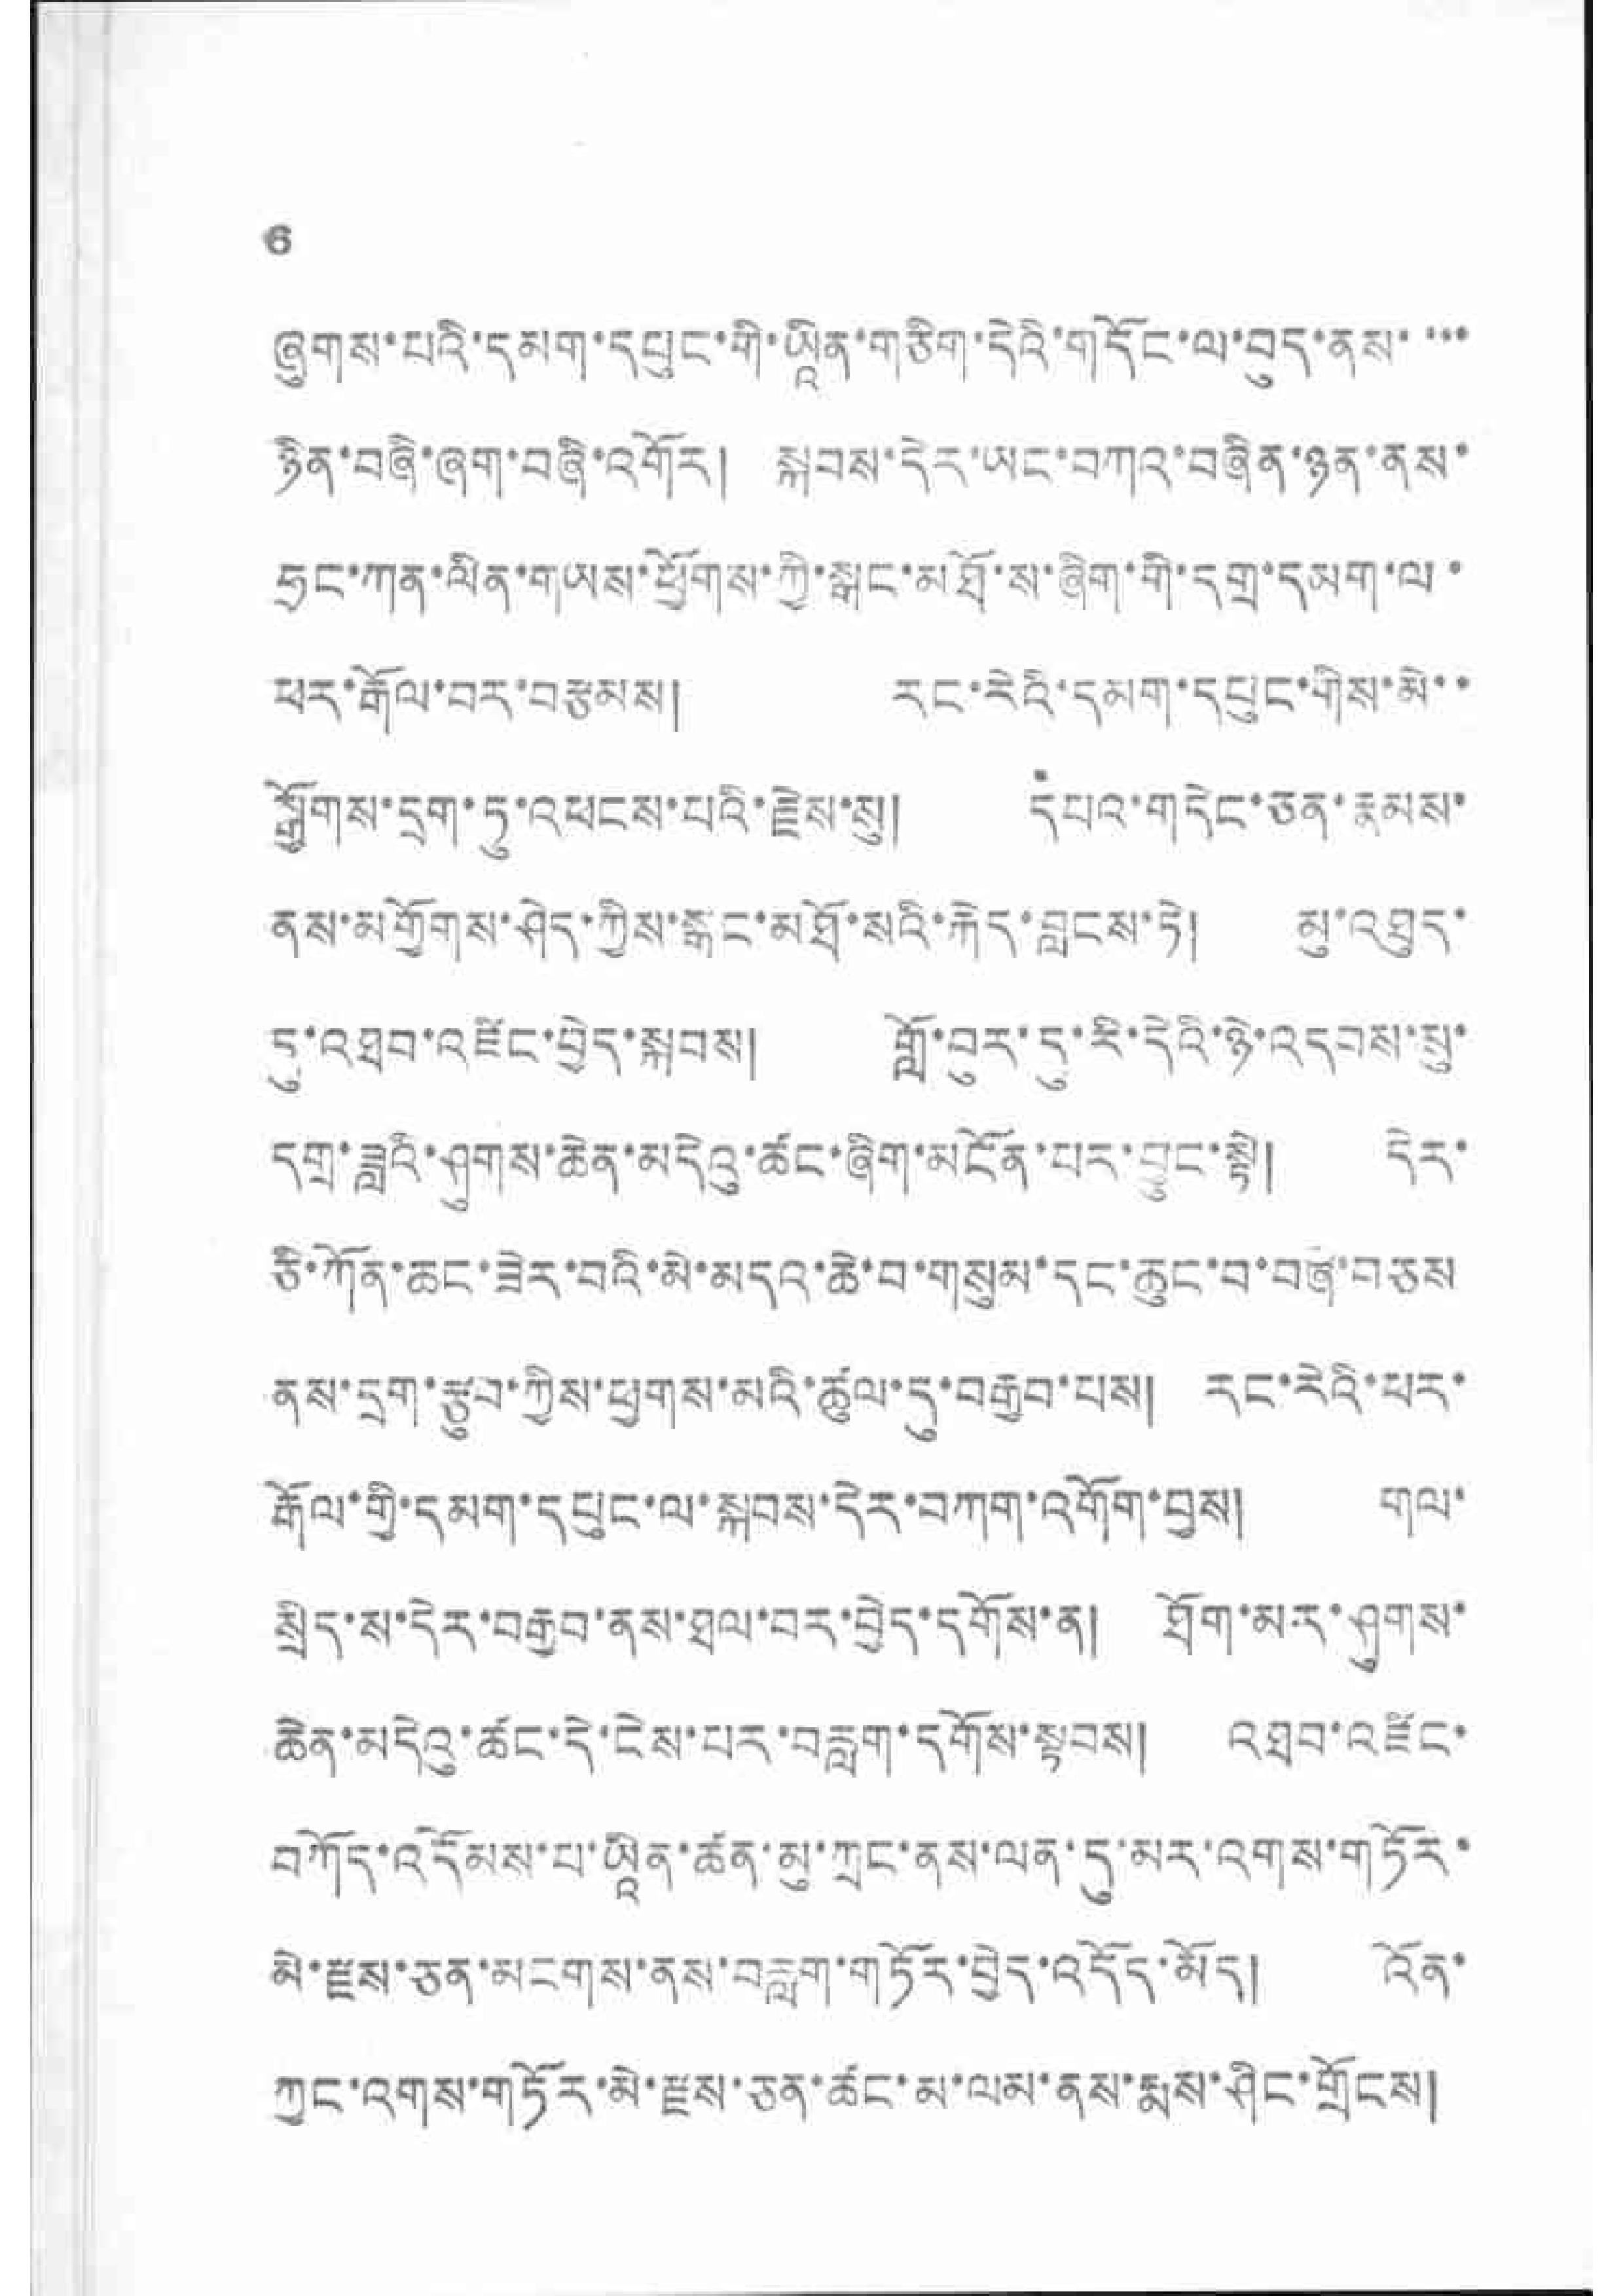6
ཞུགས་པའི་དམག་དཔུང་གི་ཡཱིན་གཅིག་དེའི་གདོང་ལ་བུད་ནས་་་་
ཉིན་བཞི་ཞག་བཞི་འགོར། སྐབས་དེར་ཡང་བཀའ་བཞིན་ཉན་ནས་
ཧྲང་ཀན་ལིན་གཡས་ཕྱོགས་ཀྱི་སྒང་མཐོ་ས་ཞིག་གི་དགྲ་དམག་ལ་
ཕར་རྒོལ་བད་བརྩམས། རང་རེའི་དམག་དཔུང་གིས་མེ་་
སྒྱོགས་དྲག་ཏུ་འཕངས་པའི་རྗེས་སུ། དཔའ་གདེང་ཅན་རྣམས་
ནས་མགྱོགས་ཤེད་ཀྱིས་རྒང་མཐོ་སའི་རྐེད་བླངས་ཏེ། མུ་འཐུད་
དུ་འཐབ་འཛིང་བྱེད་སྐབས། གློ་བུར་དུ་རི་དེའི་ཉེ་འདབས་སུ་
དགྲ་ཟླའི་ཤུགས་ཆེན་མདེའུ་ཚང་ཞིག་མངོན་པར་བྱུང་སྟེ། དེར་
ཅི་ཀོན་ཆང་ཟེད་བའི་མེ་མདའ་ཆེ་བ་གསུམ་དང་ཆུང་བ་བཞི་བཅས
ནས་དྲག་རྩུབ་ཀྱིས་ཕྱགས་མའི་ཚུལ་དུ་བརྒྱབ་པས། རང་རེའི་ཕར་
རྒོལ་གྱི་དམག་དཔུང་ལ་སྐབས་དེར་བཀག་འགོག་བྱས། གལ་
སྲིད་ས་དེར་བརྒྱབ་ནས་ཐལ་བར་བྱེད་དགོས་ན། ཐོག་མར་ཤུགས་
ཆེན་མདེའུ་ཚང་དེ་ངེས་པར་བརླག་དགོས་སྟབས། འཐབ་འཛིང་
བཀོད་འདོམས་པ་ཡཱིན་ཚན་མུ་ཀྲུང་ནས་ལན་དུ་མར་འགས་གཏོར་
མེ་རྫས་ཅུན་མངགས་ནས་བརླག་གཏོར་བྱེད་འདོད་མོད། འོན་
ཀྱང་འགས་གཏོར་མེ་རྫས་ཅན་ཚོང་མ་ལམ་ནས་རྨས་ཤིང་གྲོངས།
